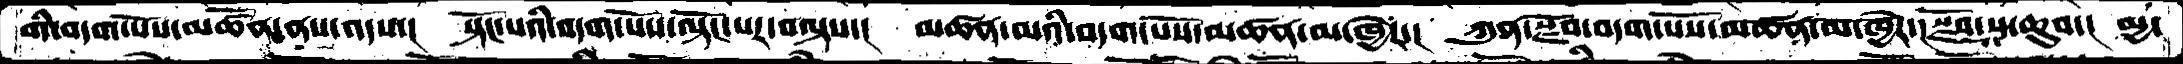གི་བདག་པོས་མཚོན་ནས་འདས་།  སྟོང་པའི་བདག་པོས་ལྟོང་པར་བལྟས་།  མཚན་མའི་བདག་པོས་མཚན་མ་ཁྱེར་།  ཀུན་སྫོབ་བདག་པོས་མཚན་མ་ཁྱེར་སྫོབ་སུ་ཆུབ་། མྱ་
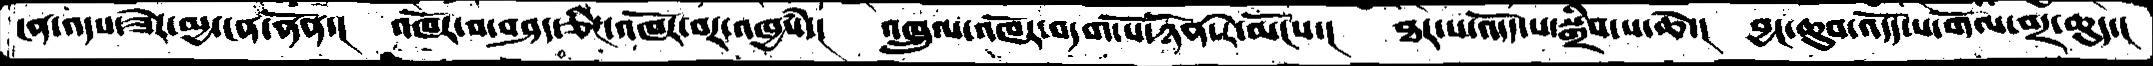ངན་འདས་ཟེར་མྱ་ངན་ནོན་།  འཁོར་བ་བཤད་ཅིང་འཁོར་བར་འཁྱཾས་།  འཁྲུལ་འཁོར་བདག་པོ་ཉོན་རེ་མོངས་།  ཐར་བ་འདོད་པ་སྒྲིབ་པ་ཆེ་།  བྱང་ཆུབ་འདོད་པ་གོལ་བར་ཆུད་།
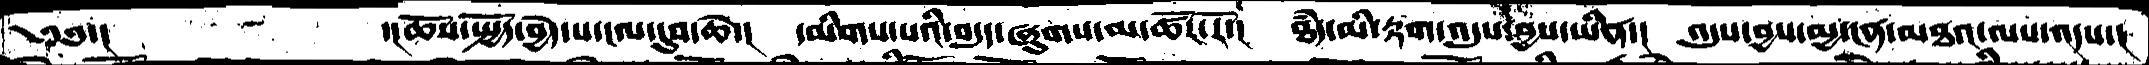༄༅་།           ་།ཆོས་སྤྱོད་བྱེད་པ་ངལ་དུབ་ཆེ་།   དམིགས་པའི་བདུད་ཞུགས་མ་ཚོར་རོ་།  ཐཾད་མི་རྟག་འདུས་བྱས་ཡིན་།  འདུས་བྱས་མྱ་ངན་མཐའ་ལས་འདས་།
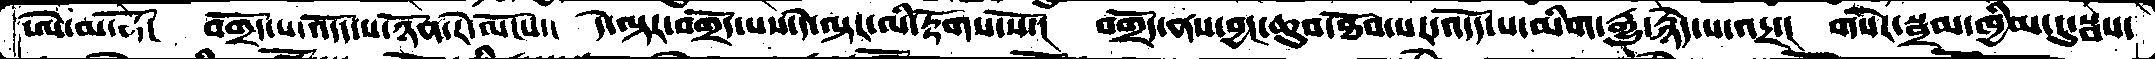ཨེ་མ་ཧོ།    བགྲོད་པ་འདོད་པ་ཉོན་རེ་མོངས་།  དེ་ལྟར་བགྲོད་པས་དེ་ལྟར་མི་རྟོགས་སོ་།   བགྲོད་ནས་བྱང་ཆུབ་ཐོབ་པར་འདོད་པ་མིག་རྒྱུ་རྙེད་པ་འདྲ་།  གསེར་སྦྲམ་ཁྱིམ་དུ་སྦས་
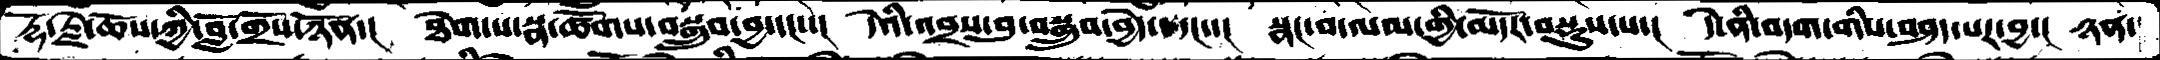རྡོ་རྗེ་ཆོས་ཀྱི་བློ་གྲོས་ཉོན་།  ཐེག་པ་སྣ་ཚོགས་བསྒྲུབ་བྱ་དང་་།  དེའི་འབྲས་བུ་བསྒྲུབ་བྱེད་དང་་།  སྣང་བ་ལམ་གྱི་མདོར་བསྡུས་པ་།  དེ་ནི་བདག་གིས་བཤད་པར་བྱ་།  ཉན་
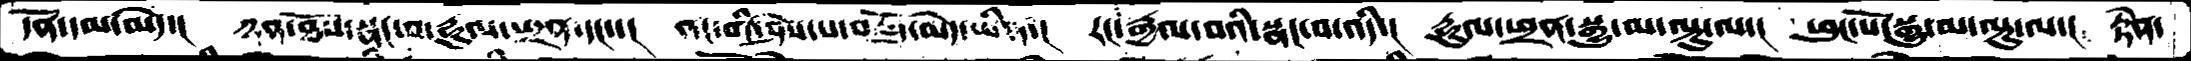དོན་དམ་མེད་།  ཉན་ཐོས་སྣང་བ་རྡུལ་ཕྲན་དང་་།   ནང་གི་ཤེས་པ་བརྗོད་མེད་ཡིན་།  རང་རྒྱལ་བའི་སྣང་བ་འདི་།  རྡུལ་ཕྲན་སྒྱུ་མ་ལྟུ་ལ་།  ཕུང་པོ་སྒྱུ་མ་ལྟུ་ལ་།  རྟེན་
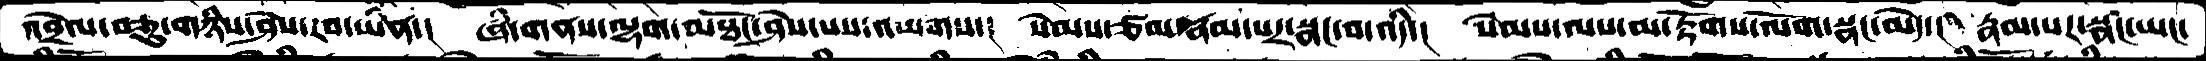འབྲེལ་བཅུ་གཉིས་ཤེས་རབ་ཡིན་།  ཞི་གནས་ལྷག་མཐོང་ཤེས་པས་འཕགས་།  སེམས་ཙམ་རྣམ་པར་སྣང་བ་འདི་།  སེམས་ལས་མ་རྟོགས་ལོག་སྣང་མེད་།  རྣམ་པར་སྣང་ཡང་
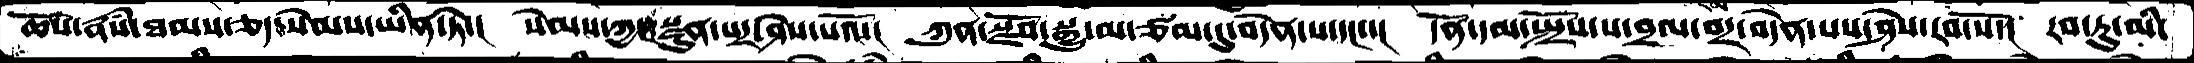ཆོས་རྣཾས་ཐམས་ཅད་སེམས་ཡིན་ཏེ་།  སེམས་ཀྱང་སྫུན་པར་ཤེས་པའོ་།  ཀུན་སྫོབ་སྒྱུ་མ་ཙམ་དུ་བདེན་པ་དང་་།  དོན་དམ་སྤྲོས་པ་བྲལ་བར་བདེན་པས་ཤེས་རབ་སོ་།  རབ་ཏུ་མི་
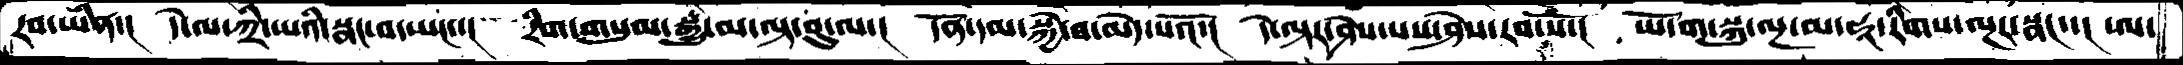རབ་ཡིན་།  དེ་ལ་ཀྲི་ཡའི་སྣང་བ་ཡང་་།  རིག་གསུམ་སྒྱུ་མ་ལྟ་བུ་ལ་།  དོན་དམ་སྐྱེ་བ་མེད་པའོ་།  དེ་ལྟར་ཤེས་པས་ཤེས་རབ་སོ་།  ཡོ་ག་སྐུ་ལྔ་མ་ཧཱ་རིགས་ལྔར་སྣང་་།  ཨ་
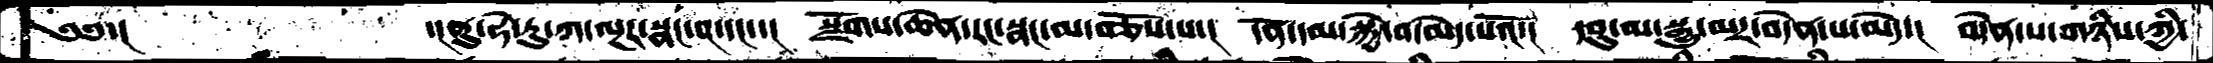༄༅་།     ་།ནུ་ཧེ་རུ་ཀ་ལྔར་སྣང་བ་དང་་།  སྫོགས་ཆེན་རང་སྣང་མ་བཅོས་པ་།  དོན་དམ་སྐྱེ་བ་མེད་པའོ་།  དབུ་མ་སྒྱུ་མར་བདེན་པ་མེད་།  བདེན་པ་གཉིས་ཀྱི་
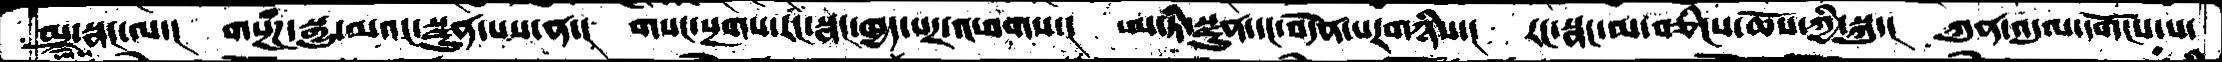མུ་སྣང་ལ་།  གསྔཌཾ་སྒྱུ་མའང་སྫུན་པས་ན་།  གསང་སྔགས་རང་སྣང་ཁྱད་པར་འཕགས་།  ཨ་ཏི་སྫུན་དང་བདེན་པར་གཉིས་།  རང་སྣང་མ་བཅིངས་ཆོས་ཀྱི་སྐུ་།  ཀུན་འདུལ་དགོངས་པ་
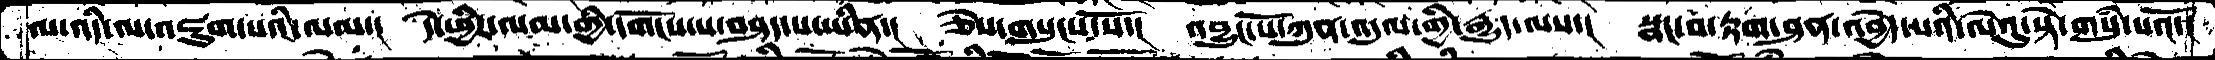ལ་འདི་ལ་འཇུག་པའི་ལམ་།  དེ་ཕྱིར་ལམ་གྱི་དགོངས་པ་བཤད་པ་ཡིན་།  ཅེས་གསུངས་སོ་།  འབྱུང་པོ་ཀུན་འདུལ་གྱི་རྒྱུད་ལས་།  སྣང་བ་རྟག་ཤན་འབྱེད་པའི་ལེའུ་སྟེ་གསུཾ་པའོ་།
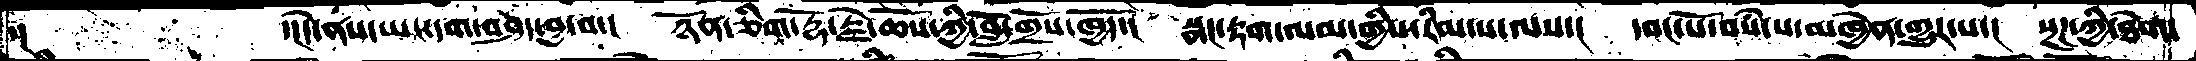་།          ་།དེ་ནས་ཡང་དག་བཤད་བྱ་བ་།   ཉོན་ཅིག་རྡོ་རྗེ་ཆོས་ཀྱི་བློ་གྲོས་ཁྱོད་།  སྣང་རྟག་ལམ་གྱིས་རིམ་པ་ལས་།  དབང་པོ་བསཾ་པ་མཁྱེན་གྱུར་པ་།  སྔཌ་ཀྱི་ཐེག་
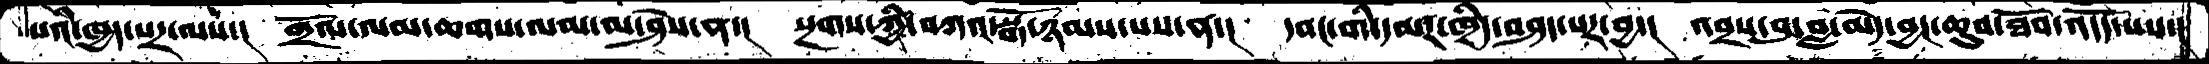པའི་ཁྱད་པར་ལས་།  གྲོལ་ལམ་ཆགས་ལམ་མ་ཤེས་ན་།  སྔགས་ཀྱི་བཀའ་སྒོ་ཉམས་པས་ན་།  དབང་གི་དམར་ཁྲིད་བཤད་པར་བྱ་།  འབྲས་བུ་བླ་མེད་བྱང་ཆུབ་ཐོབ་འདོད་པས་།
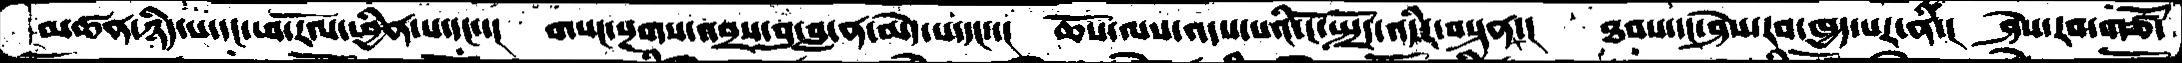མཚན་ཉིད་པ་དང་ཕ་རོལ་ཕྱིན་པ་དང་་།  གསང་སྔགས་འབྲས་བུ་བླ་ན་མེད་པ་དང་།  ཆོས་ལས་འདས་པའི་ངོ་སྤྲོད་འདིར་བསྟན་།  ཐབས་དང་ཤེས་རབ་ཁྱད་པར་ནི་།  ཤེས་རབ་གཙོ་
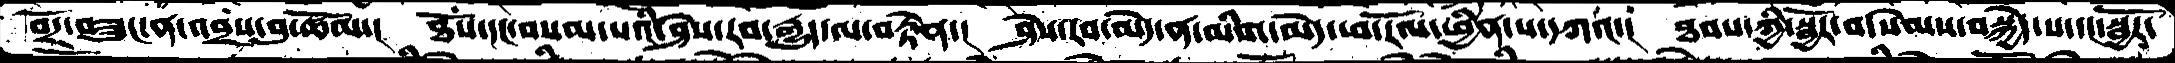བོར་བཟུང་ན་འབྲས་བུ་ཚོལ་།  ཐོས་དང་བསམ་པའི་ཤེས་རབ་རྒྱུད་ལ་བརྟེན་།  ཤེས་རབ་མེད་ན་མིག་མེད་ཕ་རོལ་ཕྱིན་པ་དཀའ་།  ཐབས་ཀྱི་སྦྱོར་བ་སེམས་བསྐྱེད་པ་དང་སྦྱོར་
